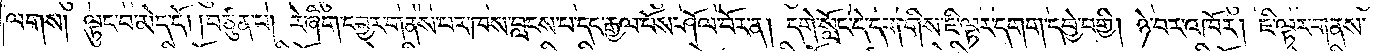ལགས། ལྟུང་བ་མེད་དོ། །བཙུན་པ། རེ་ཞིག་དབྱར་གནས་པར་ཁས་བླངས་པ་དང་རྒྱལ་པོས་ཤོལ་བོར་ན། དགེ་སློང་དེ་དག་གིས་ཇི་ལྟར་དགག་དབྱེ་བགྱི། ཉེ་བར་འཁོར། ཇི་ལྟར་གནས་
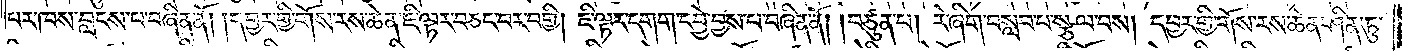པར་ཁས་བླངས་པ་བཞིན་ནོ། །དབྱར་གྱི་གོས་རས་ཆེན་ཇི་ལྟར་བཅང་བར་བགྱི། ཇི་ལྟར་དགག་དབྱེ་བྱས་པ་བཞིན་ནོ། །བཙུན་པ། རེ་ཞིག་བསླབ་པ་སྩལ་བས། དབྱར་གྱི་གོས་རས་ཆེན་ཤིན་ཏུ་
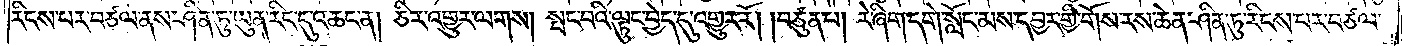རིངས་པར་བཙལ་ནས་ཤིན་ཏུ་ཡུན་རིང་དུ་འཆང་ན། ཅིར་འགྱུར་ལགས། སྤང་བའི་ལྟུང་བྱེད་དུ་འགྱུར་རོ། །བཙུན་པ། རེ་ཞིག་དགེ་སློང་མས་དབྱར་གྱི་གོས་རས་ཆེན་ཤིན་ཏུ་རིངས་པར་བཙལ་
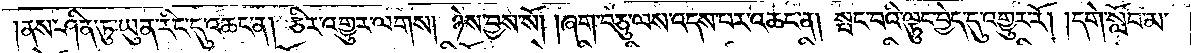།ནས་ཤིན་ཏུ་ཡུན་རིང་དུ་འཆང་ན། ཅིར་འགྱུར་ལགས། ཉེས་བྱས་སོ། །ཞག་བཅུ་ལས་འདས་པར་འཆང་ན། སྤང་བའི་ལྟུང་བྱེད་དུ་འགྱུར་རོ། །དགེ་སློབ་མ་
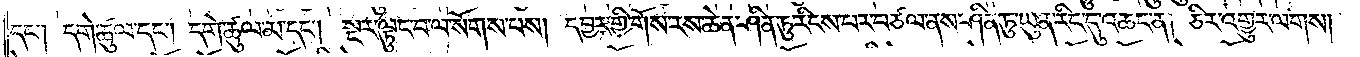དང༌། དགེ་ཚུལ་དང༌། དགེ་ཚུལ་མ་དང༌། སྔར་ལྟུང་བ་ལ་སོགས་པས། དབྱར་གྱི་གོས་རས་ཆེན་ཤིན་ཏུ་རིངས་པར་བཙལ་ནས་ཤིན་ཏུ་ཡུན་རིང་དུ་འཆང་ན། ཅིར་འགྱུར་ལགས།
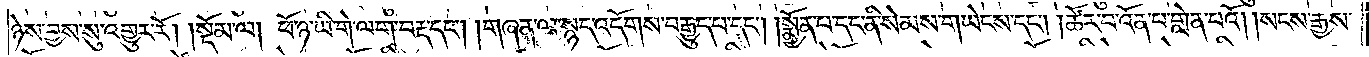ཉེས་བྱས་སུ་འགྱུར་རོ།    །སྡོམ་ལ། ཕོ་ཉ་ཡི་གེ་ལག་བརྡ་དང༌། །གཞན་ལ་སྙད་འདོགས་བརྒྱུད་པ་དང༌། །སྨྱོན་པ་དང་ནི་སེམས་གཡེངས་དང༌། །ཚོར་བ་འོན་པ་གླེན་པའོ། །སངས་རྒྱས་
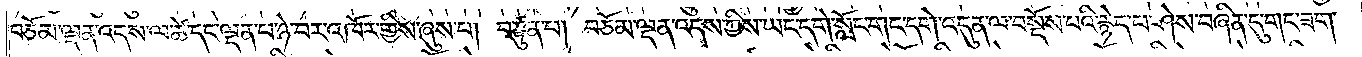བཅོམ་ལྡན་འདས་ལ་ཚེ་དང་ལྡན་པ་ཉེ་བར་འཁོར་གྱིས་ཞུས་པ། བཙུན་པ། བཅོམ་ལྡན་འདས་ཀྱིས་ཡང་དགེ་སློང་གང་དགེ་འདུན་ལ་བསྔོས་པའི་རྙེད་པ་ཤེས་བཞིན་དུ་གང་ཟག་
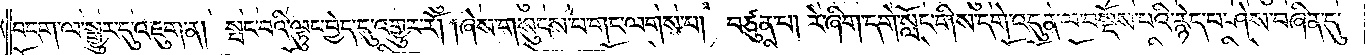བདག་ལ་སྒྱུར་དུ་འཇུག་ན། སྤང་བའི་ལྟུང་བྱེད་དུ་འགྱུར་རོ། །ཞེས་གསུངས་པ་གང་ལགས་པ། བཙུན་པ། རེ་ཞིག་དགེ་སློང་གིས་དགེ་འདུན་ལ་བསྔོས་པའི་རྙེད་པ་ཤེས་བཞིན་དུ་
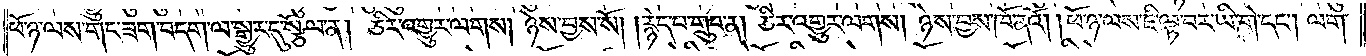ཕོ་ཉ་ལས་གང་ཟག་བདག་ལ་སྒྱུར་དུ་སྩོལ་ན། ཅིར་འགྱུར་ལགས། ཉེས་བྱས་སོ། །རྙེད་པ་གྲུབ་ན། ཅིར་འགྱུར་ལགས། ཉེས་བྱས་ཁོ་ནའོ། །ཕོ་ཉ་ལས་ཇི་ལྟ་བར་ཡི་གེ་དང༌། ལག་
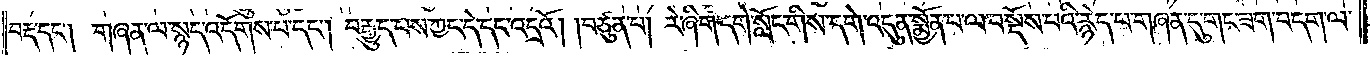བརྡ་དང༌། གཞན་ལ་སྙད་འདོགས་པ་དང༌། བརྒྱུད་པས་ཀྱང་དེ་དང་འདྲའོ། །བཙུན་པ། རེ་ཞིག་དགེ་སློང་གིས་དགེ་འདུན་སྨྱོན་པ་ལ་བསྔོས་པའི་རྙེད་པ་གཞན་དུ་གང་ཟག་བདག་ལ་
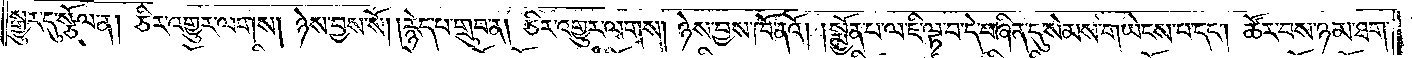སྒྱུར་དུ་སྩོལ་ན། ཅིར་འགྱུར་ལགས། ཉེས་བྱས་སོ། །རྙེད་པ་གྲུབ་ན། ཅིར་འགྱུར་ལགས། ཉེས་བྱས་ཁོ་ནའོ། །སྨྱོན་པ་ལ་ཇི་ལྟ་བ་དེ་བཞིན་དུ་སེམས་གཡེངས་པ་དང༌། ཚོར་བས་ཉམ་ཐག་
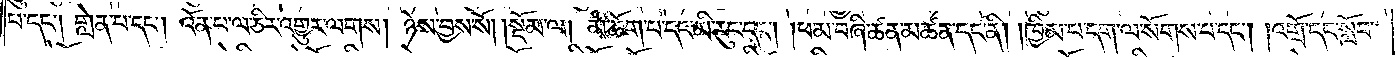པ་དང༌། གླེན་པ་དང༌། འོན་པ་ལ་ཅིར་འགྱུར་ལགས། ཉེས་བྱས་སོ། །སྡོམ་ལ། མི་ཆོག་པ་དང་མི་རུང་དང༌། །ཕམ་བཞི་ཚན་མཚན་དང་ནི། །ཁྱིམ་པ་དག་ལ་སོགས་པ་དང༌། །འགྲོ་དང་སློབ་
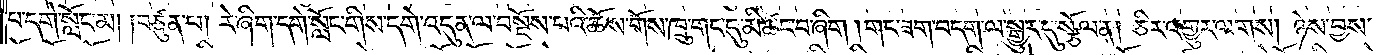པ་དགེ་སློང་མ། །བཙུན་པ། རེ་ཞིག་དགེ་སློང་གིས་དགེ་འདུན་ལ་བསྔོས་པའི་ཆོས་གོས་ཁྲུ་གང་དུ་མི་ཚང་བ་ཞིག །གང་ཟག་བདག་ལ་སྒྱུར་དུ་སྩོལ་ན། ཅིར་འགྱུར་ལགས། ཉེས་བྱས་
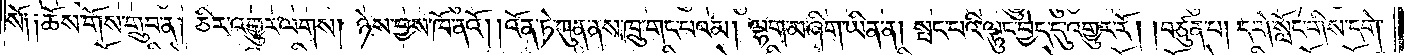སོ༑ ༑ཆོས་གོས་གྲུབ་ན། ཅིར་འགྱུར་ལགས། ཉེས་བྱས་ཁོ་ནའོ། །འོན་ཏེ་ཀུན་ནས་ཁྲུ་གང་པའམ། ལྷག་མ་ཞིག་ཡིན་ན། སྤང་བའི་ལྟུང་བྱེད་དུ་འགྱུར་རོ། །བཙུན་པ། དགེ་སློང་གིས་དགེ་
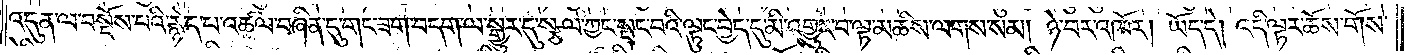འདུན་ལ་བསྔོས་པའི་རྙེད་པ་འཚལ་བཞིན་དུ་གང་ཟག་བདག་ལ་སྒྱུར་དུ་སྩལ་ཀྱང་སྤང་བའི་ལྟུང་བྱེད་དུ་མི་འགྱུར་བ་ལྟ་མཆིས་ལགས་སམ། ཉེ་བར་འཁོར། ཡོད་དེ། འདི་ལྟར་ཆོས་གོས་
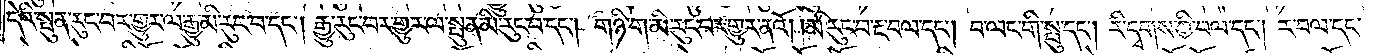དེའི་སྤུན་རུང་བར་གྱུར་ལ་རྒྱུ་མི་རུང་བ་དང༌། རྒྱུ་རུང་བར་གྱུར་ལ་སྤུན་མི་རུང་བ་དང༌། གཉི་ག་མི་རུང་བར་གྱུར་ནའོ། །མི་རུང་བ་རྔ་བལ་དང༌། བ་ལང་གི་སྤུ་དང༌། རི་དྭགས་ཀྱི་བལ་དང༌། ར་བལ་དང་
